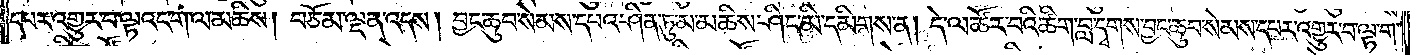དཔར་འགྱུར་བ་ལྟའང་ག་ལ་མཆིས། བཅོམ་ལྡན་འདས། བྱང་ཆུབ་སེམས་དཔའ་ཤིན་ཏུ་མ་མཆིས་ཤིང་མི་དམིགས་ན། དེ་ལ་ཚོར་བའི་ཚིག་བླ་དྭགས་བྱང་ཆུབ་སེམས་དཔར་འགྱུར་བ་ལྟ་ག་
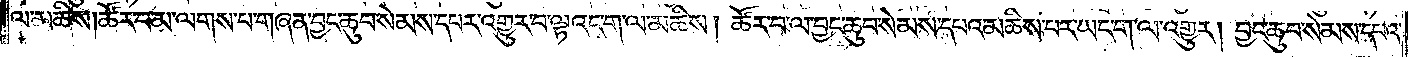ལ་མཆིས། ཚོར་བ་མ་ལགས་པ་གཞན་བྱང་ཆུབ་སེམས་དཔར་འགྱུར་བ་ལྟའང་ག་ལ་མཆིས། ཚོར་བ་ལ་བྱང་ཆུབ་སེམས་དཔའ་མཆིས་པར་ཡང་ག་ལ་འགྱུར། བྱང་ཆུབ་སེམས་དཔའ་
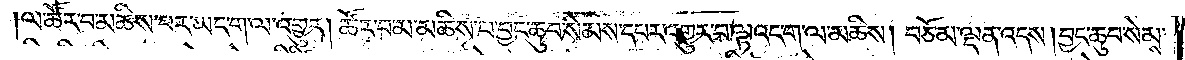ལ་ཚོར་བ་མཆིས་པར་ཡང་ག་ལ་འགྱུར། ཚོར་བ་མ་མཆིས་པ་བྱང་ཆུབ་སེམས་དཔར་འགྱུར་བ་ལྟའང་ག་ལ་མཆིས། བཅོམ་ལྡན་འདས། བྱང་ཆུབ་སེམས་
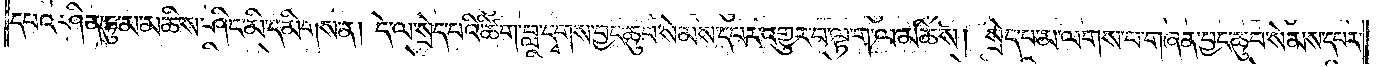དཔའ་ཤིན་ཏུ་མ་མཆིས་ཤིང་མི་དམིགས་ན། དེ་ལ་སྲེད་པའི་ཚིག་བླ་དྭགས་བྱང་ཆུབ་སེམས་དཔར་འགྱུར་བ་ལྟ་ག་ལ་མཆིས། སྲེད་པ་མ་ལགས་པ་གཞན་བྱང་ཆུབ་སེམས་དཔར་
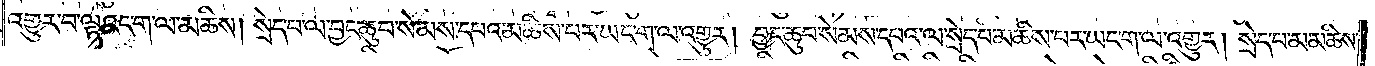འགྱུར་བ་ལྟའང་ག་ལ་མཆིས། སྲེད་པ་ལ་བྱང་ཆུབ་སེམས་དཔའ་མཆིས་པར་ཡང་ག་ལ་འགྱུར། བྱང་ཆུབ་སེམས་དཔའ་ལ་སྲེད་པ་མཆིས་པར་ཡང་ག་ལ་འགྱུར། སྲེད་པ་མ་མཆིས་
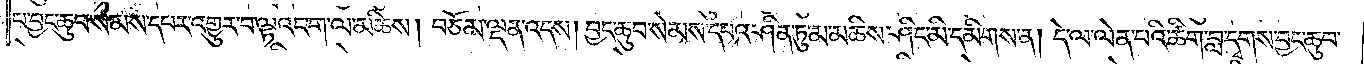པ་བྱང་ཆུབ་སེམས་དཔར་འགྱུར་བ་ལྟའང་ག་ལ་མཆིས། བཅོམ་ལྡན་འདས། བྱང་ཆུབ་སེམས་དཔའ་ཤིན་ཏུ་མ་མཆིས་ཤིང་མི་དམིགས་ན། དེ་ལ་ལེན་པའི་ཚིག་བླ་དྭགས་བྱང་ཆུབ་
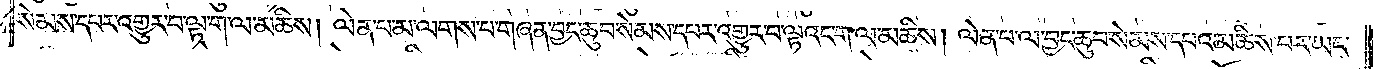སེམས་དཔར་འགྱུར་བ་ལྟ་ག་ལ་མཆིས། ལེན་པ་མ་ལགས་པ་གཞན་བྱང་ཆུབ་སེམས་དཔར་འགྱུར་བ་ལྟའང་ག་ལ་མཆིས། ལེན་པ་ལ་བྱང་ཆུབ་སེམས་དཔའ་མཆིས་པར་ཡང་
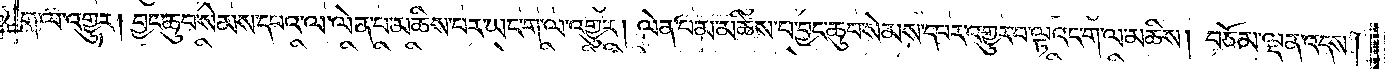ག་ལ་འགྱུར། བྱང་ཆུབ་སེམས་དཔའ་ལ་ལེན་པ་མཆིས་པར་ཡང་ག་ལ་འགྱུར། ལེན་པ་མ་མཆིས་པ་བྱང་ཆུབ་སེམས་དཔར་འགྱུར་བ་ལྟའང་ག་ལ་མཆིས། བཅོམ་ལྡན་འདས།
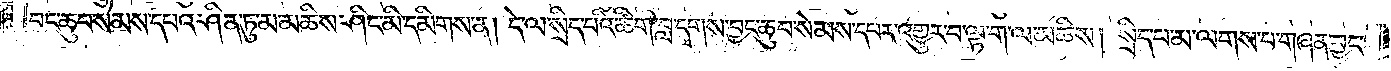བྱང་ཆུབ་སེམས་དཔའ་ཤིན་ཏུ་མ་མཆིས་ཤིང་མི་དམིགས་ན། དེ་ལ་སྲིད་པའི་ཚིག་བླ་དྭགས་བྱང་ཆུབ་སེམས་དཔར་འགྱུར་བ་ལྟ་ག་ལ་མཆིས། སྲིད་པ་མ་ལགས་པ་གཞན་བྱང་
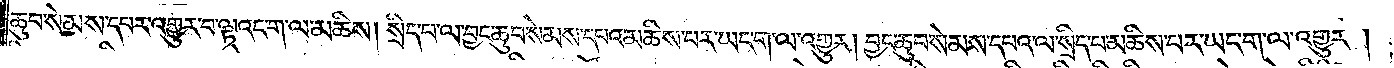ཆུབ་སེམས་དཔར་འགྱུར་བ་ལྟའང་ག་ལ་མཆིས། སྲིད་པ་ལ་བྱང་ཆུབ་སེམས་དཔའ་མཆིས་པར་ཡང་ག་ལ་འགྱུར། བྱང་ཆུབ་སེམས་དཔའ་ལ་སྲིད་པ་མཆིས་པར་ཡང་ག་ལ་འགྱུར།
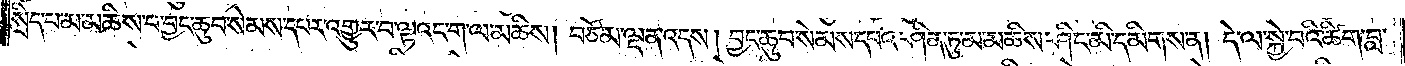སྲིད་པ་མ་མཆིས་པ་བྱང་ཆུབ་སེམས་དཔར་འགྱུར་བ་ལྟའང་ག་ལ་མཆིས། བཅོམ་ལྡན་འདས། བྱང་ཆུབ་སེམས་དཔའ་ཤིན་ཏུ་མ་མཆིས་ཤིང་མི་དམིགས་ན། དེ་ལ་སྐྱེ་བའི་ཚིག་བླ་
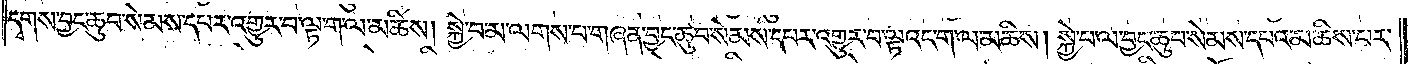དྭགས་བྱང་ཆུབ་སེམས་དཔར་འགྱུར་བ་ལྟ་ག་ལ་མཆིས། སྐྱེ་བ་མ་ལགས་པ་གཞན་བྱང་ཆུབ་སེམས་དཔར་འགྱུར་བ་ལྟའང་ག་ལ་མཆིས། སྐྱེ་བ་ལ་བྱང་ཆུབ་སེམས་དཔའ་མཆིས་པར་
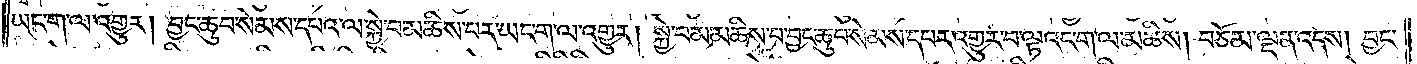ཡང་ག་ལ་འགྱུར། བྱང་ཆུབ་སེམས་དཔའ་ལ་སྐྱེ་བ་མཆིས་པར་ཡང་ག་ལ་འགྱུར། སྐྱེ་བ་མ་མཆིས་བ་བྱང་ཆུབ་སེམས་དཔར་འགྱུར་བ་ལྟའང་ག་ལ་མཆིས། བཅོམ་ལྡན་འདས། བྱང་
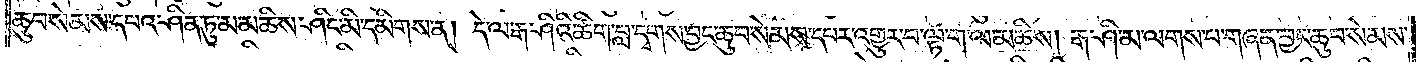ཆུབ་སེམས་དཔའ་ཤིན་ཏུ་མ་མཆིས་ཤིང་མི་དམིགས་ན། དེ་ལ་རྒ་ཤིའི་ཚིག་བླ་དྭགས་བྱང་ཆུབ་སེམས་དཔར་འགྱུར་བ་ལྟ་ག་ལ་མཆིས། རྒ་ཤི་མ་ལགས་པ་གཞན་བྱང་ཆུབ་སེམས་
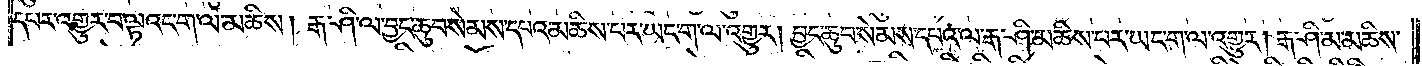དཔར་འགྱུར་བ་ལྟའང་ག་ལ་མཆིས། རྒ་ཤི་ལ་བྱང་ཆུབ་སེམས་དཔའ་མཆིས་པར་ཡང་ག་ལ་འགྱུར། བྱང་ཆུབ་སེམས་དཔའ་ལ་རྒ་ཤི་མཆིས་པར་ཡང་ག་ལ་འགྱུར། རྒ་ཤི་མ་མཆིས་
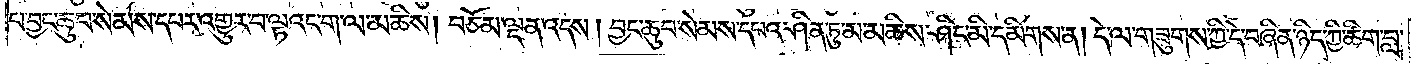པ་བྱང་ཆུབ་སེམས་དཔར་འགྱུར་བ་ལྟའང་ག་ལ་མཆིས། བཅོམ་ལྡན་འདས། བྱང་ཆུབ་སེམས་དཔའ་ཤིན་ཏུ་མ་མཆིས་ཤིང་མི་དམིགས་ན། དེ་ལ་གཟུགས་ཀྱི་དེ་བཞིན་ཉིད་ཀྱི་ཚིག་བླ་
